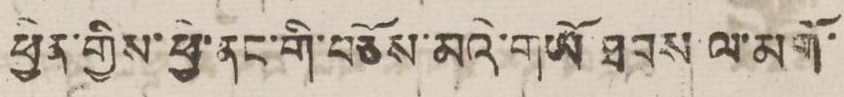ཕྱིན་གྱིས་ཕྱི་ནང་གི་བཅོས་མའི་གཡོ ཐབས ལ་མགོ་
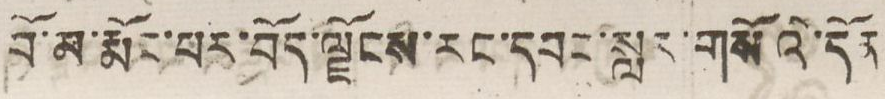བོ་མ་རྨོང་པར་བོད་ལྗོངས་རང་དབང་སླར་གསོའི་དོན
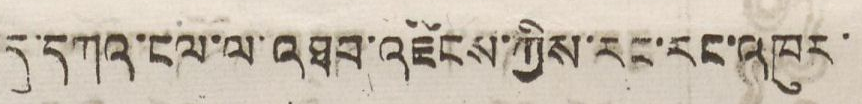དུ་དཀའ་ངལ་ལ་འཐབ་འཛིངས་ཀྱི་རང་རང་འཁུར་
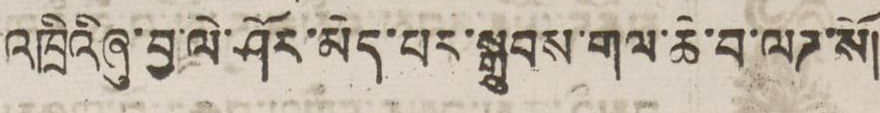འཁྲིའིཞུ་བྱ་ལེ་ཤོར་མེད་པར་སྒྲུབས་གལ་ཆེ་བ་ལཊ་སོ།
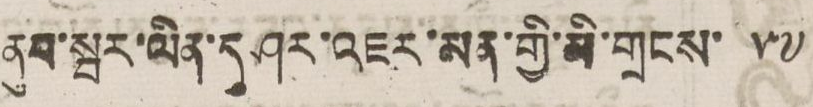ནུབ་སྦར་ལིན་དུ་ཤར་འཇར་མན་གྱི་མི་གྲངས་ ༥༧
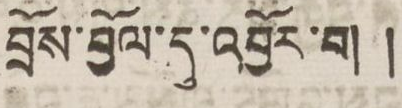བྲོས་བྱོལ་དུ་འབྱོར་བ། །
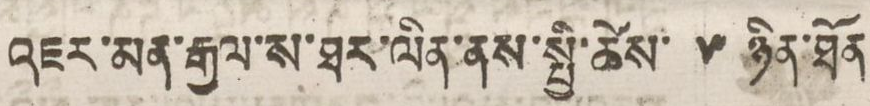འཇར་མན་རྒྱལ་ས་ཐར་ལིན་ནས་སྤྱི་ཚེས་ ༥ ཉིན་ཐོན་
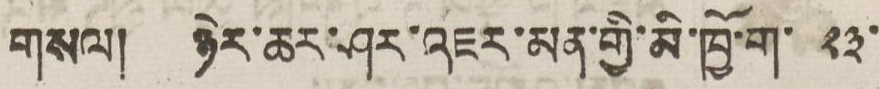གསལ། ཉེར་ཆར་ཤར་འཇར་མན་གྱི་མི་ཁྱོ་ག་ ༢༣
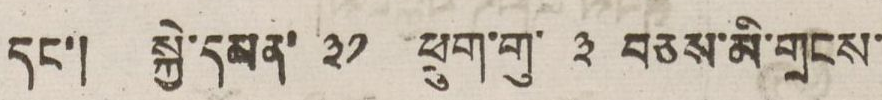དང་། སྐྱེ་དམན་ ༣༡ ཕྲུག་གུ་ ༣ བཅས་མི་གྲངས་
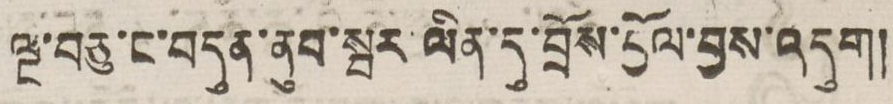ལྔ་བཅུ་ང་བདུན་ནུབ་སྦར ལིན་དུ་བྲོས་བྱོལ་བྱས་འདུག།
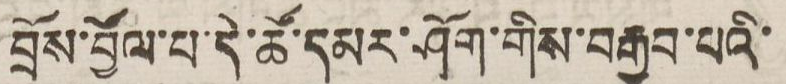བྲོས་བྱོལ་པ་དེ་ཚོ་དམར་ཤོག་གིས་བརྒྱབ་པའི་
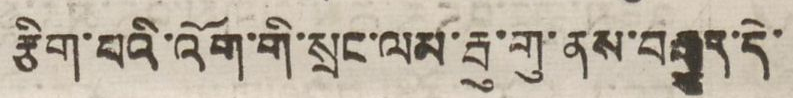རྩིག་པའི་འོག་གི་སྲང་ལམ་རྦུ་གུ་ནས་བརྒྱུད་དེ་
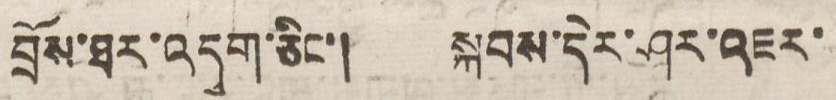བྲོས་ཐར་འདུག་ཅིང་། སྐབས་དེར་ཤརའཇར་
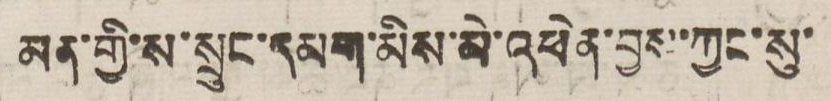མན་གྱི་ས་སྲུང་དམག་མིས་མེ་འཕེན་བྱས་ཀྱང་སུ་
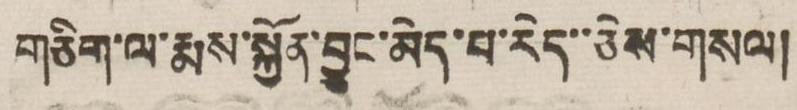གཅིག་ལ་རྨས་སྐྱོན་བྱུང་མེད་པ་རེད་ཅེས་གསལ།
